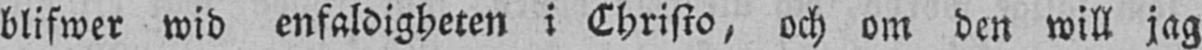blifwer wid enfaldigheten i Christo, och om den will jag
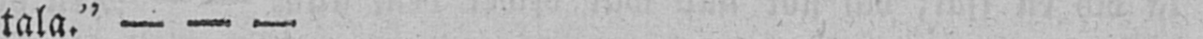tala." - - -
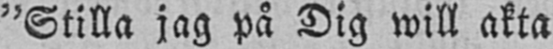"Stilla jag på Dig will akta
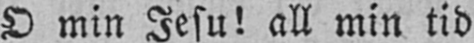O min Jesu! all min tid
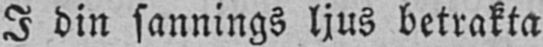I din sannings ljus betrakta
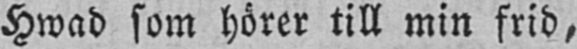Hwad som hörer till min frid,
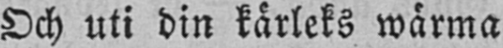Och uti din kärleks wärma
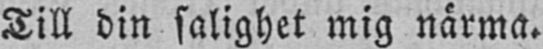Till din salighet mig närma.
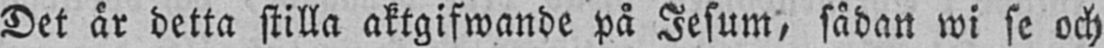Det är detta stilla aktgifwande på Jesum, sådan wi se och
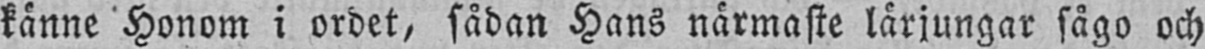känne Honom i ordet, sådan Hans närmaste lärjungar sågo och
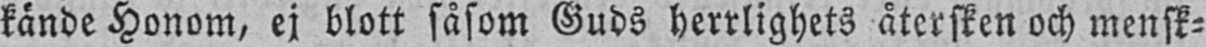kände Honom, ej blott såsom Guds herrlighets återsken och mensk-
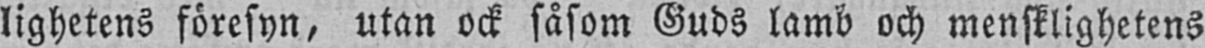lighetens föresyn, utan ock såsom Guds lamb och mensklighetens
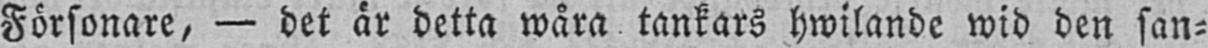Försonare, — det är detta wåra tankars hwilande wid den san-
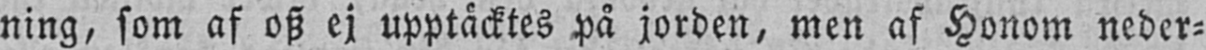ning, som af osz ej upptäcktes på jorden, men af Honom neder-
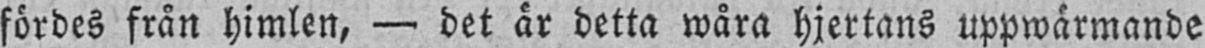fördes från himlen, — det är detta wåra hjertans uppwärmande
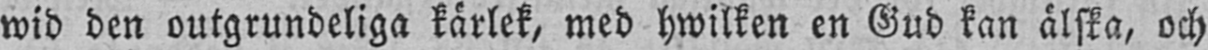wid den outgrundeliga kärlek, med hwilken en Gud kan älska, och
